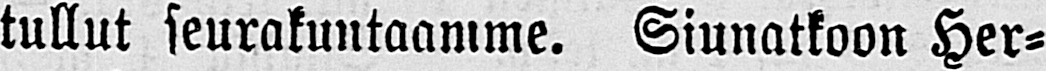tullut seurakuntaamme. Siunatkoon Her-
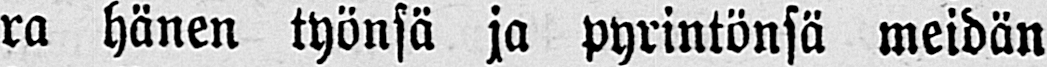ra hänen työnsä ja pyrintönsä meidän
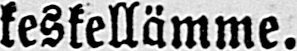keskellämme.
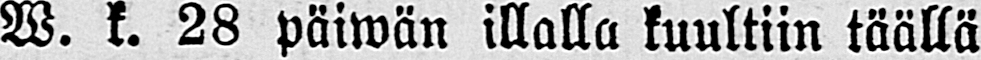W. k. 28 päiwän illalla kuultiin täällä
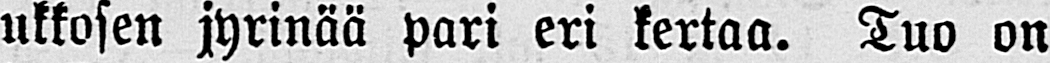ukkosen jyrinää pari eri kertaa. Tuo on
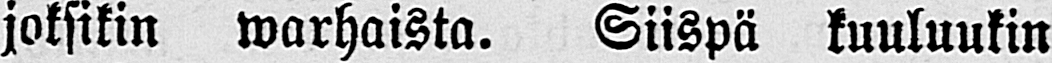joksikin warhaista. Siispä kuuluukin
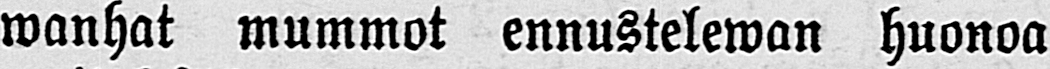wanhat mummot ennustelewan huonoa
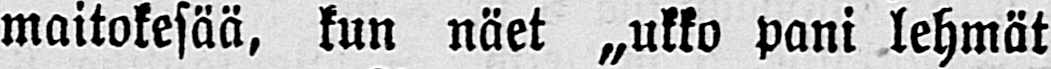maitokesää, kun näet „ukko pani lehmät
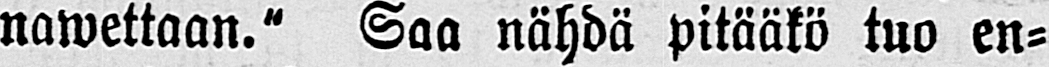nawettaan." Saa nähdä pitääkö tuo en-
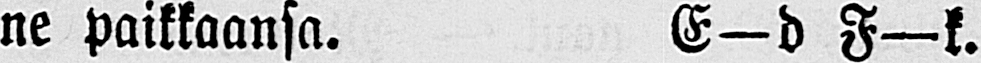ne paikkaansa. E—d F—k.
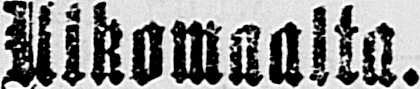Ulkomaalta.
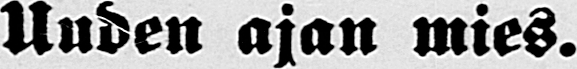Uuden ajan mies.
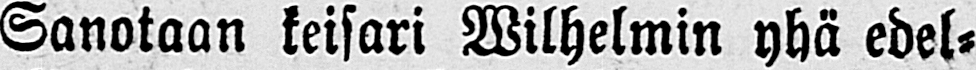Sanotaan keisari Wilhelmin yhä edel-
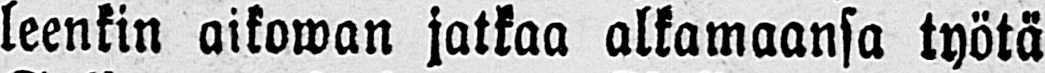leenkin aikowan jatkaa alkamaansa työtä
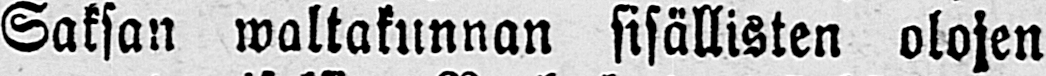Saksan waltakunnan sisällisten olojen
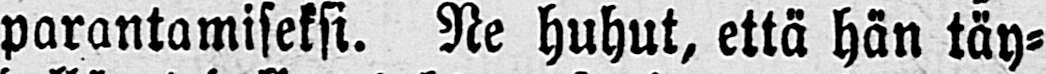parantamiseksi. Ne huhut, että hän täy-
